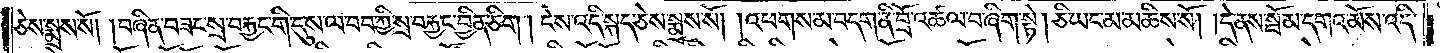ཅེས་སྨྲས་སོ། །བཞིན་བཟང་སྲ་བརྐྱང་གི་དུས་ལ་བབ་ཀྱི་སྲ་བརྐྱང་བྱིན་ཅིག །དེས་འདི་སྐད་ཅེས་སྨྲས་སོ། །འཕགས་མ་བདག་ནི་བྲོ་འཚལ་བ་ཞིག་སྟེ། ཅི་ཡང་མ་མཆིས་སོ། །དེ་ནས་སྦོམ་དགའ་མོས་འདི་
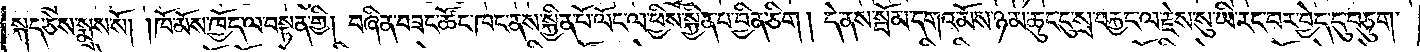སྐད་ཅེས་སྨྲས་སོ། །ཁོ་མོས་ཁྱོད་ལ་བསྟན་གྱི། བཞིན་བཟང་ཚོང་ཁང་ནས་སྐྱིན་པོ་ལོང་ལ་ཕྱིས་སྐྱིན་པ་བྱིན་ཅིག །དེ་ནས་སྦོམ་དགའ་མོས་ཉམ་ཆུང་ངུ་སྲ་བརྐྱང་ལ་རྗེས་སུ་ཡི་རང་བར་བྱེད་དུ་བཅུག་
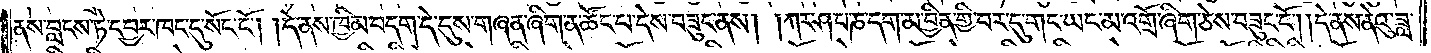ནས་བླངས་ཏེ་དབྱར་ཁང་དུ་སོང་ངོ༌། །དེ་ནས་ཁྱིམ་བདག་དེ་དུས་གཞན་ཞིག་ན་ཚོང་པ་དེས་བཟུང་ནས། །ཀར་ཤ་པ་ཎ་དག་མ་བྱིན་གྱི་བར་དུ་གང་ཡང་མ་འགྲོ་ཞིག་ཅེས་བཟུང་ངོ༌། །དེ་ནས་ནེའུ་ཟླ་
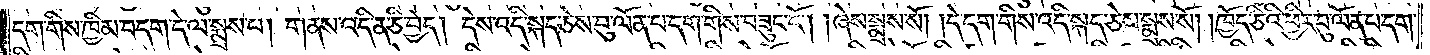དག་གིས་ཁྱིམ་བདག་དེ་ལ་སྨྲས་པ། གནས་འདི་ན་ཅི་བྱེད། དེས་འདི་སྐད་ཅེས་བུ་ལོན་པ་དག་གིས་བཟུང་ངོ༌། །ཞེས་སྨྲས་སོ། །དེ་དག་གིས་འདི་སྐད་ཅེས་སྨྲས་སོ། །ཁྱོད་ཅིའི་ཕྱིར་བུ་ལོན་པ་དག་
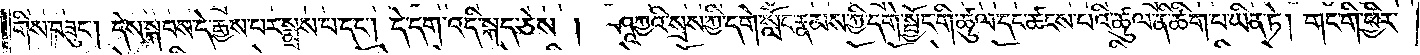གིས་བཟུང༌། དེས་སྐབས་དེ་རྒྱས་པར་སྨྲས་པ་དང༌། དེ་དག་འདི་སྐད་ཅེས། ཤཱཀྱའི་སྲས་ཀྱི་དགེ་སློང་རྣམས་ཀྱི་དགེ་སྦྱོང་གི་ཚུལ་དང་ཚངས་པའི་ཚུལ་ནི་ཚིག་པ་ཡིན་ཏེ། གང་གི་ཕྱིར་
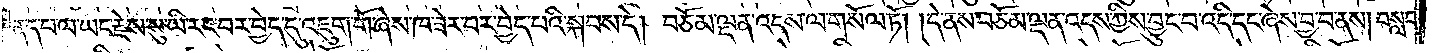ནད་པ་ལ་ཡང་རྗེས་སུ་ཡི་རང་བར་བྱེད་དུ་འཇུག་གོ་ཞེས་ཁ་ཟེར་བར་བྱེད་པའི་སྐབས་དེ། བཅོམ་ལྡན་འདས་ལ་གསོལ་ཏོ། །དེ་ནས་བཅོམ་ལྡན་འདས་ཀྱིས་བྱུང་བ་འདི་དང་ཞེས་བྱ་བ་ནས། བསླབ་
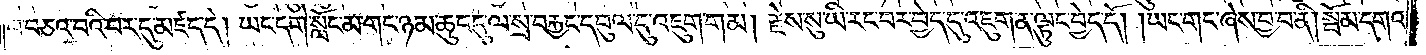པ་བཅའ་བའི་བར་དུ་མཛད་དེ། ཡང་དགེ་སློང་མ་གང་ཉམ་ཆུང་དུ་ལ་སྲ་བརྐྱང་དབུལ་དུ་འཇུག་གམ། རྗེས་སུ་ཡི་རང་བར་བྱེད་དུ་འཇུག་ན་ལྟུང་བྱེད་དོ། །ཡང་གང་ཞེས་བྱ་བ་ནི། སྦོམ་དགའ་
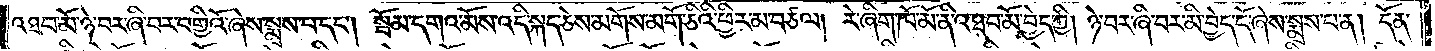འཐབ་མོ་ཉེ་བར་ཞི་བར་བགྱིའོ་ཞེས་སྨྲས་པ་དང༌། སྦོམ་དགའ་མོས་འདི་སྐད་ཅེས་མགོས་མགོ་ཅིའི་ཕྱིར་མ་བཙལ། རེ་ཞིག་ཁོ་མོ་ནི་འཐབ་མོ་བྱེད་ཀྱི། ཉེ་བར་ཞི་བར་མི་བྱེད་དོ་ཞེས་སྨྲས་པ་ན། དོན་
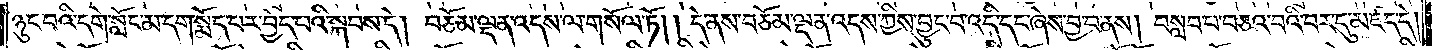ཉུང་བའི་དགེ་སློང་མ་དག་སྨོད་པར་བྱེད་པའི་སྐབས་དེ། བཅོམ་ལྡན་འདས་ལ་གསོལ་ཏོ། །དེ་ནས་བཅོམ་ལྡན་འདས་ཀྱིས་བྱུང་བ་འདི་དང་ཞེས་བྱ་བ་ནས། བསླབ་པ་བཅའ་བའི་བར་དུ་མཛད་དེ།
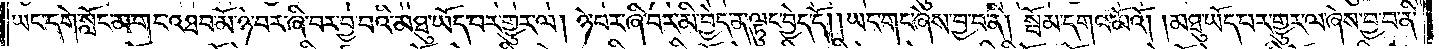ཡང་དགེ་སློང་མ་གང་འཐབ་མོ་ཉེ་བར་ཞི་བར་བྱ་བའི་མཐུ་ཡོད་པར་གྱུར་ལ། ཉེ་བར་ཞི་བར་མི་བྱེད་ན་ལྟུང་བྱེད་དོ། །ཡང་གང་ཞེས་བྱ་བ་ནི། སྦོམ་དགའ་མོའོ། །མཐུ་ཡོད་པར་གྱུར་ལ་ཞེས་བྱ་བ་ནི་
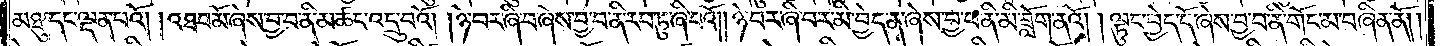མཐུ་དང་ལྡན་པའོ། །འཐབ་མོ་ཞེས་བྱ་བ་ནི་མཚང་འདྲུ་བའོ། །ཉེ་བར་ཞི་བ་ཞེས་བྱ་བ་ནི་རབ་ཏུ་ཞི་བའོ། །ཉེ་བར་ཞི་བར་མི་བྱེད་ན་ཞེས་བྱ་བ་ནི་མི་ཟློག་ནའོ། །ལྟུང་བྱེད་དོ་ཞེས་བྱ་བ་ནི་གོང་མ་བཞིན་ནོ། །
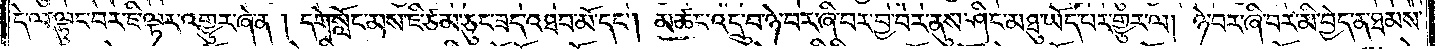དེ་ལ་ལྟུང་བར་ཇི་ལྟར་འགྱུར་ཞེ་ན། དགེ་སློང་མས་ཇི་ཙམ་ཅུང་ཟད་འཐབ་མོ་དང༌། མཚང་འདྲུ་བ་ཉེ་བར་ཞི་བར་བྱ་བར་ནུས་ཤིང་མཐུ་ཡོད་པར་གྱུར་ལ། ཉེ་བར་ཞི་བར་མི་བྱེད་ན་ཐམས་
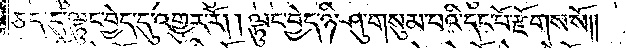ཅད་དུ་ལྟུང་བྱེད་དུ་འགྱུར་རོ། །ལྟུང་བྱེད་ཉི་ཤུ་གསུམ་པའི་དང་པོ་རྫོགས་སོ༎
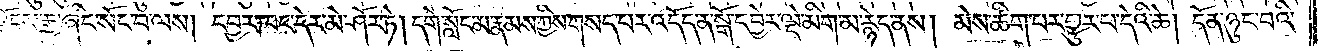མིག་ཁྱེར་ཏེ་ལྗོངས་རྒྱུ་ཞིང་སོང་བ་ལས། དབྱར་ཁང་དེར་མེ་ཤོར་ཏེ། །དགེ་སློང་མ་རྣམས་ཀྱིས་གསད་པར་འདོད་ན་སྒོ་དབྱེར་ལྡེ་མིག་མ་རྙེད་ནས། མེས་ཚིག་པར་གྱུར་པ་དེའི་ཚེ། དོན་ཉུང་བའི་
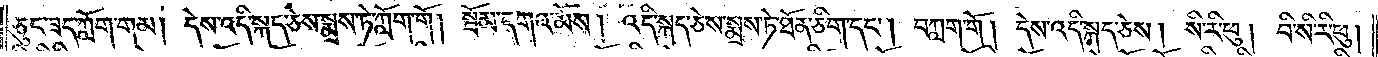ཅུང་ཟད་ཀློག་གམ། དེས་འདི་སྐད་ཅེས་སྨྲས་ཏེ་ཀློག་གོ། སྦོམ་དགའ་མོས། འདི་སྐད་ཅེས་སྨྲས་ཏེ་ཐོན་ཅིག་དང༌། བཀླག་གོ། དེས་འདི་སྐད་ཅེས། སི་རི་ཕུ། བི་སི་རི་ཕུ།
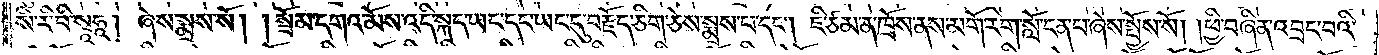སི་རི་བི་སྭཱཧཱ། ཞེས་སྨྲས་སོ། །སྦོམ་དགའ་མོས་འདི་སྐད་ཡང་དང་ཡང་དུ་བརྗོད་ཅིག་ཅེས་སྨྲས་པ་དང༌། ཇི་ཙམ་ན་ཁྲོས་ནས་མགོ་རེག་སློ་ངན་པ་ཞེས་སྤྱོས་སོ། །ཕྱི་བཞིན་འབྲང་བའི་
